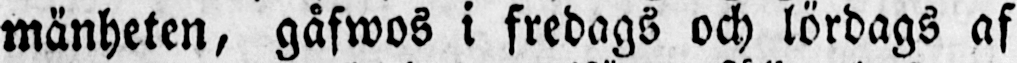mänheten, gåfwos i fredags och lördags af
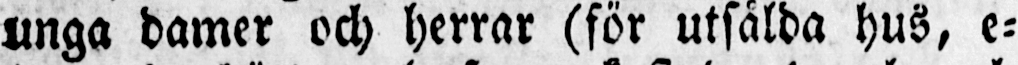unga damer och herrar (för utsålda hus, e-
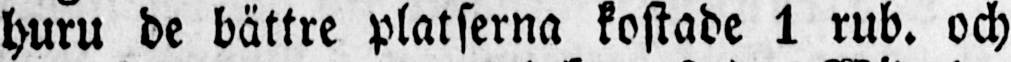huru de bättre platserna kostade 1 rub. och
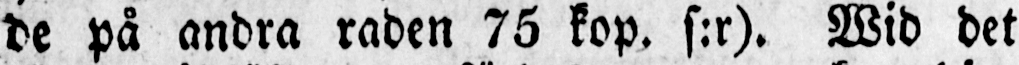de på andra raden 75 kop. s:r). Wid det
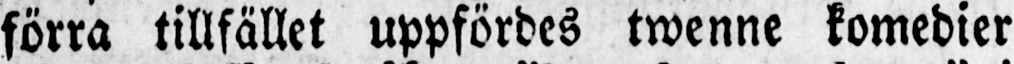förra tillfället uppfördes twenne komedier
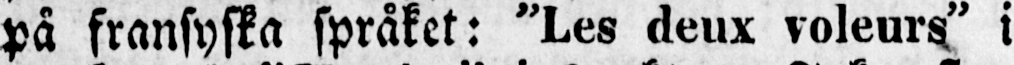på fransyska språket: "Les deux voleurs" i
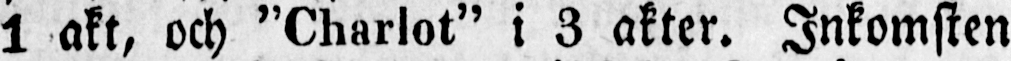1 akt, och "Charlot" i 3 akter. Inkomsten
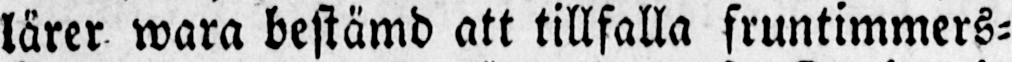lärer wara bestämd att tillfalla fruntimmers-
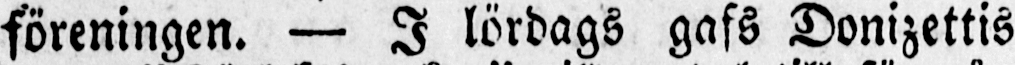föreningen. — I lördags gafs Donizettis
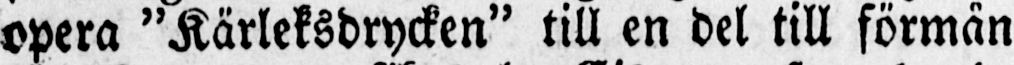opera "Kärleksdrycken" till en del till förmån
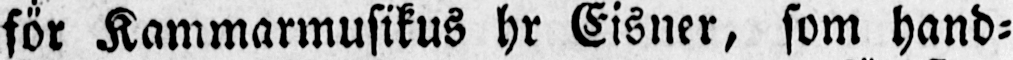för Kammarmusikus hr Eisner, som hand-
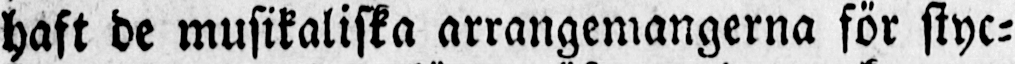haft de musikaliska arrangemangerna för styc-
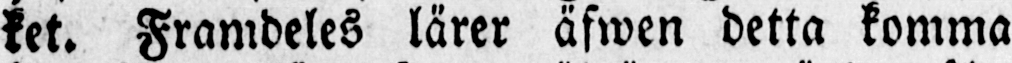ket. Framdeles lärer äfwen detta komma
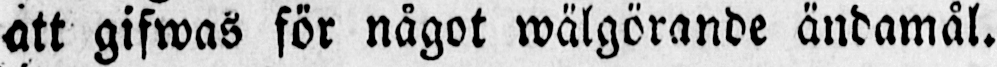att gifwas för något wälgörande ändamål.
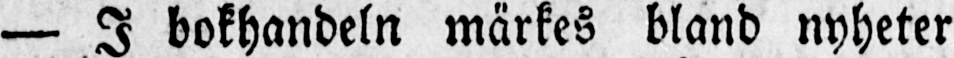— I bokhandeln märkes bland nyheter
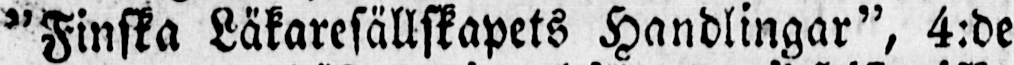"Finska Läkaresällskapets Handlingar", 4:de
